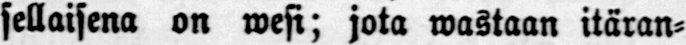sellaisena on wesi; jota wastaan itäran-
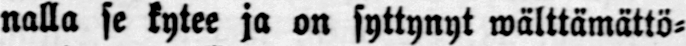nalla se kytee ja on syttynyt wälttämättö-
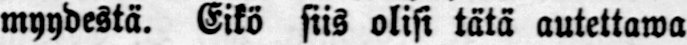myydestä. Eikö siis olisi tätä autettawa
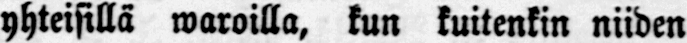yhteisillä waroilla, kun kuitenkin niiden
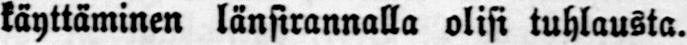käyttäminen länsirannalla olisi tuhlausta.
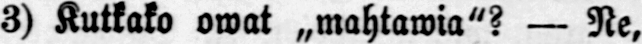3) Kutkako owat „wahtawia"? — Ne,
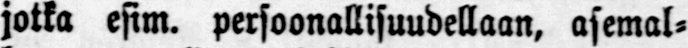jotka esim. persoonallisuudellaan, asemal-
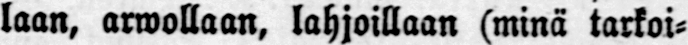laan, arwollaan, lahjoillaan (minä tarkoi-
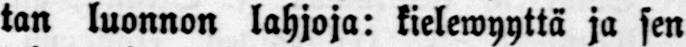tan luonnon lahjoja: kielewyyttä ja sen
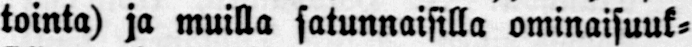tointa) ja muilla satunnaisilla ominaisuuk-
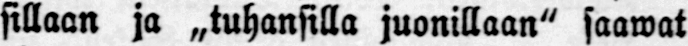sillaan ja „tuhansilla juonillaan" saawat
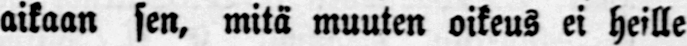aikaan sen, mitä muuten oikeus ei heille
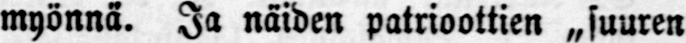myönnä. Ja näiden patrioottien „suuren
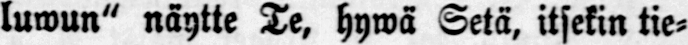luwun" näytte Te, hywä Setä, itsekin tie-
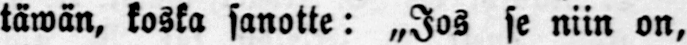täwän, koska sanotte: „Jos se niin on,
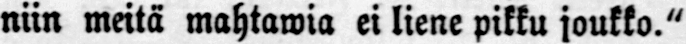niin meitä mahtawia ei liene pikku joukko."
